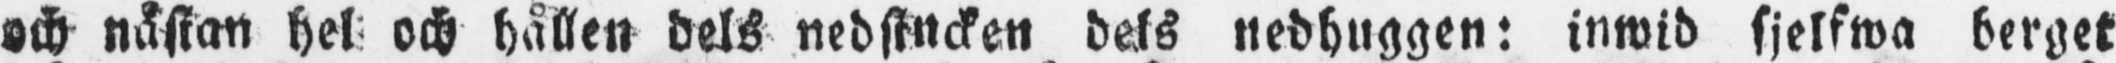och nästan hel och hållen dels nedstucken dels nedhuggen: inwid sjelfwa berget
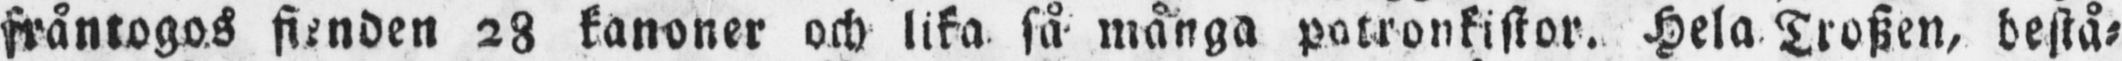fråntogos fienden 28 kanoner och lika så många patronkistor. Hela Troszen, bestå-
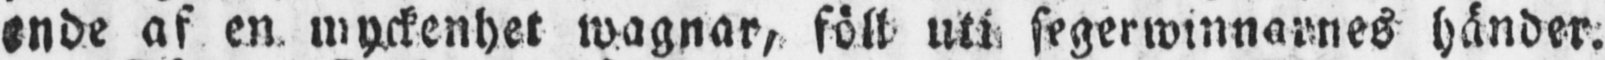ende af en myckenhet wagnar, föll uti segerwinnarnes händer.
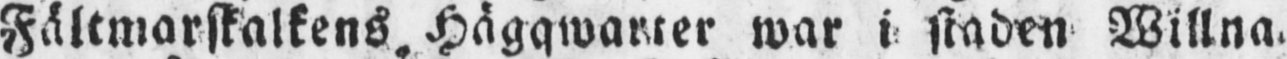Fältmarskalkens Hägqwarter war i staden Willna.
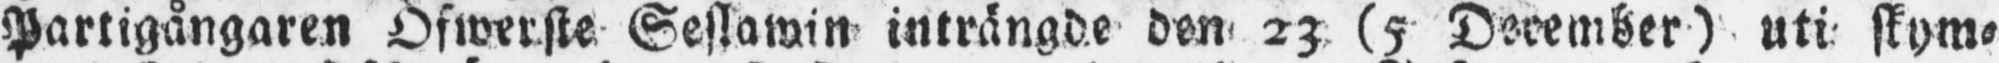Partigångaren Öfwerste Seslawin inträngde den 23 (5 December) uti skym-
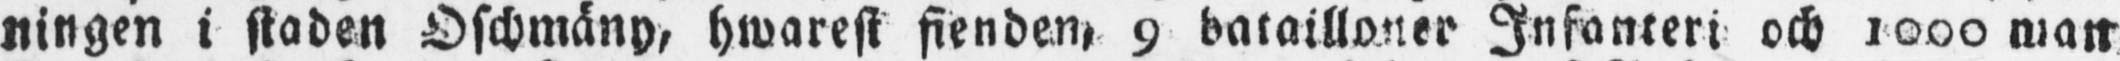ningen i staden Oschmäny, hwarest fienden, 9 batailloner Infanteri och 1000 man
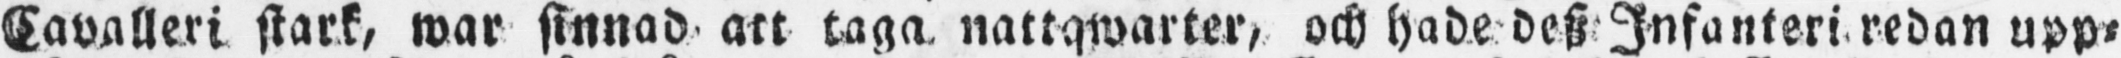Cavalleri stark, war sinnad att taga nattqwarter, och hade desz Infanteri redan upp-
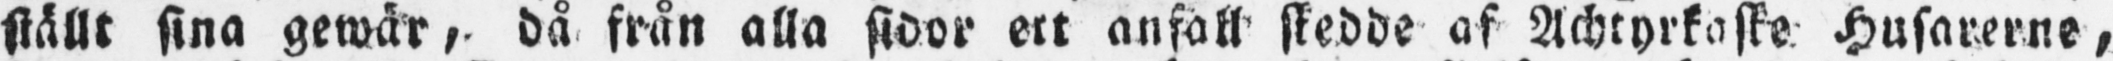ställt sina gewär, då från alla sidor ett anfall skedde af Achtyrkaste Husarerne,
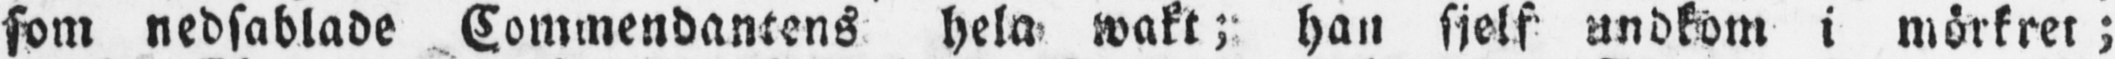som nedsadlade Commendantens hela wakt; han sjelf undkom i mörkret;
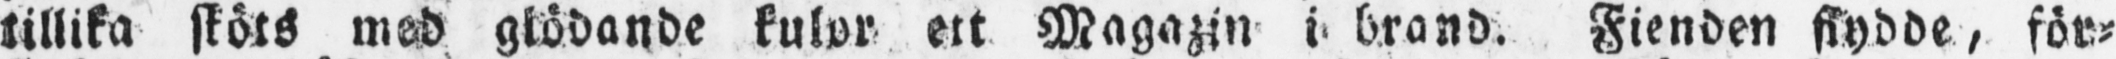tillika sköts med glödande kulor ett Magazin i brand. Fienden skydde, för-
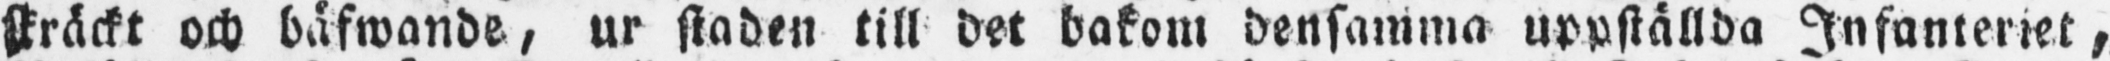skräckt och bäfwande, ur staden till det bakom densamma uppställda Infanteriet,
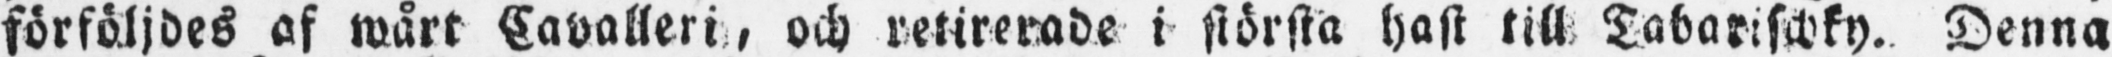förföljdes af wårt Cavalleri, och retirerade i största hast till Tabarischky. Denna
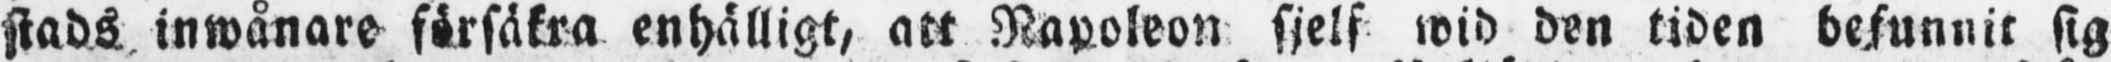stads inwånare försäkra enhälligt, att Napoleon sjelf wid den tiden befunnit sig
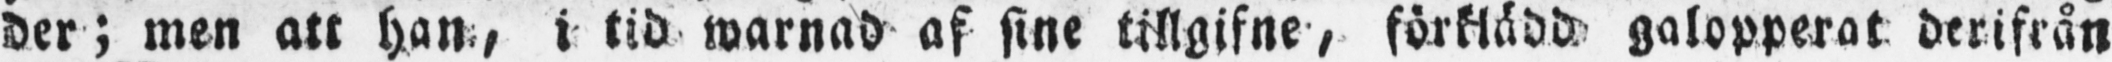der; men att han, i tid warnad af sine tillgifne, förklädd galopperat derifrån
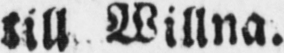till Willna.
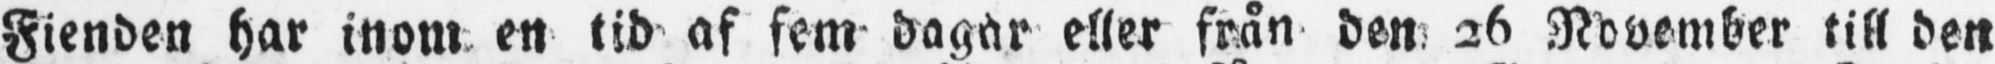Fienden har inom en tid af fem dagar eller från den 26 November till den
